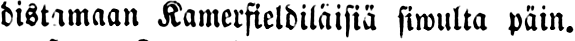distamaan Kamerfieldiläisiä siwulta päin.
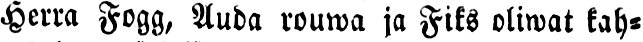Herra Fogg, Auda rouwa ja Fiks oliwat kah-
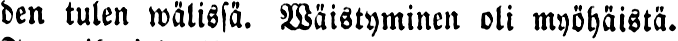den tulen wälissä. Wäistyminen oli myöhäistä.
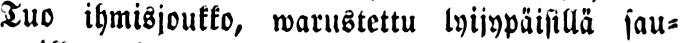Tuo ihmisjoukko, warustettu lyijypäisillä sau-
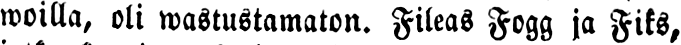woilla, oli wastustamaton. Fileas Fogg ja Fiks,
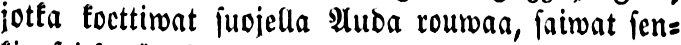jotka koettiwat suojella Auda rouwaa, saiwat sen-
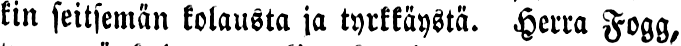kin seitsemän kolausta ja tyrkkäystä. Herra Fogg,
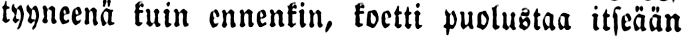tyyneenä kuin ennenkin, koetti puolustaa itseään
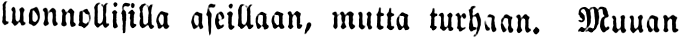luonnollisilla aseillaan, mutta turhaan. Muuan
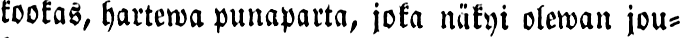kookas, hartewa punaparta, joka näkyi olewan jou-
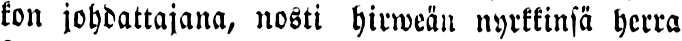kon johdattajana, nosti hirweän nyrkkinsä herra
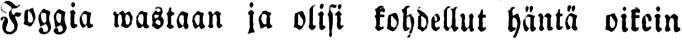Foggia wastaan ja olisi kohdellut häntä oikein
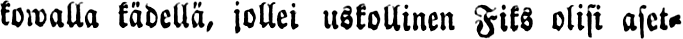kowalla kädellä, jollei uskollinen Fiks olisi aset-
